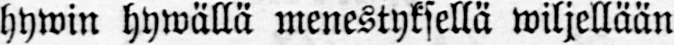hywin hywällä menestyksellä wiljellään
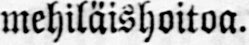mehiläishoitoa.
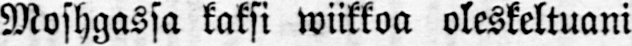Moshgassa kaksi wiikkoa oleskeltuani
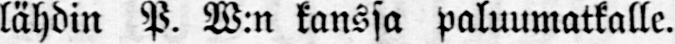lähdin P. W:n kanssa paluumatkalle.
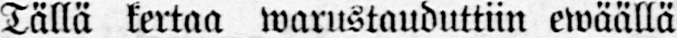Tällä kertaa warustauduttiin ewäällä
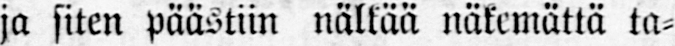ja siten päästiin nälkää näkemättä ta-
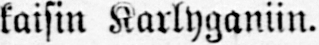kaisin Karlyganiin.
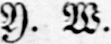Y. W.
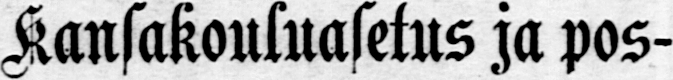Kansakouluasetus ja pos-
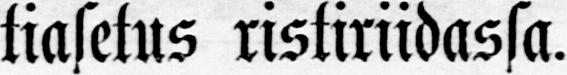tiasetus ristiriidassa.
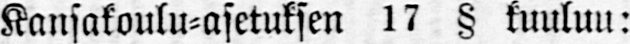Kansakoulu-asetuksen 17 § kuuluu:
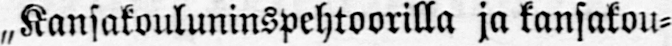„Kansakouluninspehtoorilla ja kansakou-
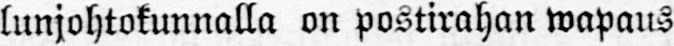lunjohtokunnalla on postirahan wapaus
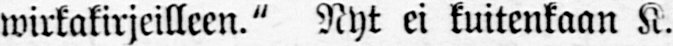wirkakirjeilleen." Nyt ei kuitenkaan K.
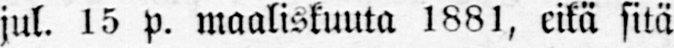jul. 15 P. maaliskuuta 1881, eikä sitä
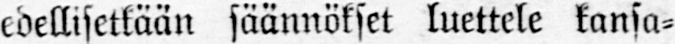edellisetkään säännökset luettele kansa-
